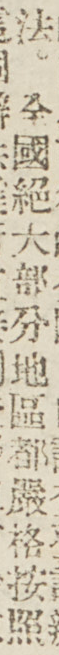法。全國絕大部分地區都嚴格按照
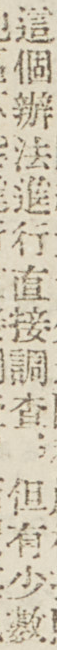這個辦法進行直接調查；但有少數
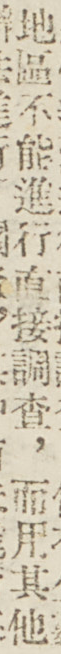地區不能進行直接調查，而用其他
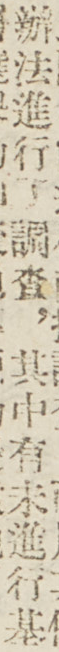辦法進行了調查，其中有未進行基
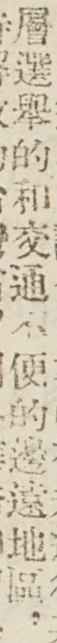層選舉的和交通不便的邊遠地區，
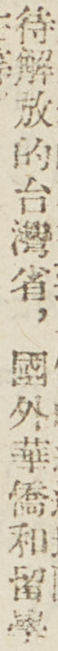待解放的台灣省，國外華僑和留學
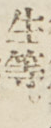生等。
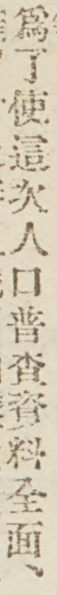爲了使這次人口普查資料全面、
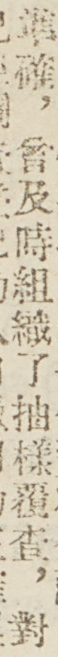準確，曾及時組織了抽樣覆查，對
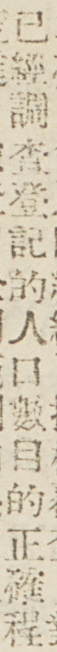已經調查登記的人口數目的正確程
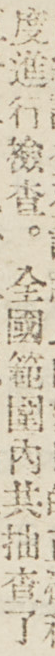度進行檢查。全國範圍內共抽查了
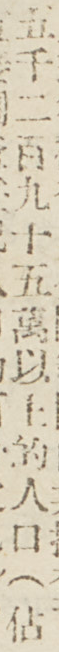五千二百九十五萬以上的人口（佔
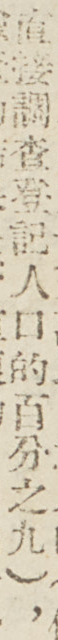直接調查登記人口的百分之九），
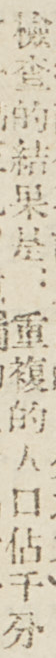檢查的結果是：重複的人口佔千分
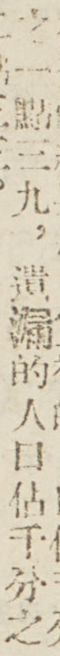之一點三九，遺漏的人口佔千分之
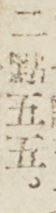二點五五。
